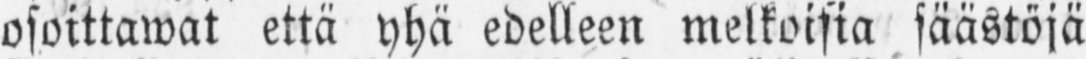osoittawat että yhä edelleen melkoisia säästöjä
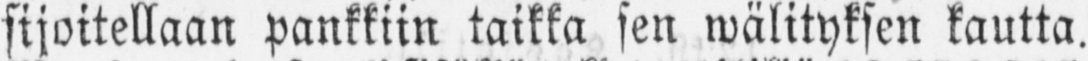sijoitellaan pankkiin taikka sen wälityksen kautta.
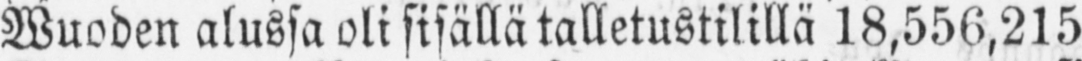Wuoden alussa oli sisällä talletustilillä 18,556,215
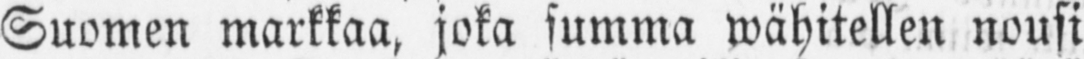Suomen markkaa, joka summa wähitellen nousi
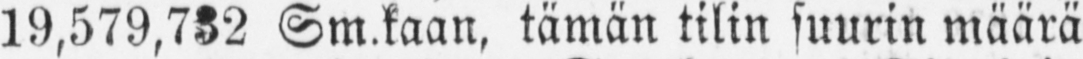19,579,732 Sm.kaan. tämän tilin suurin määrä
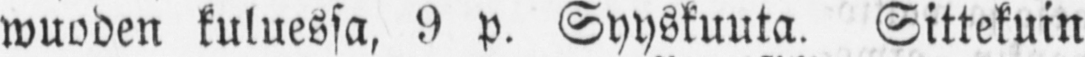wuoden kuluessa, 9 p. Syyskuuta. Sittekuin
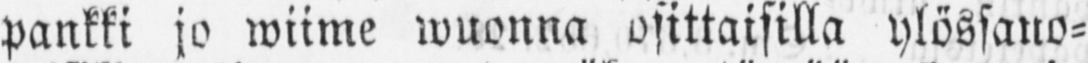pankki jo wiime wuonna osittaisilla ylössano-
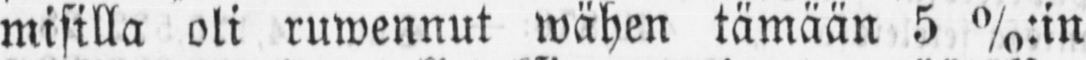misilla oli ruwennut wähen tämään 5 %:in
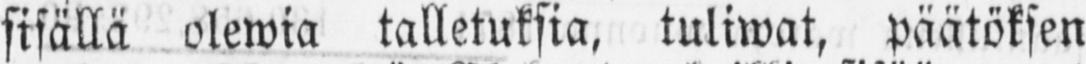sisällä olewia talletuksia, tuliwat, päätöksen
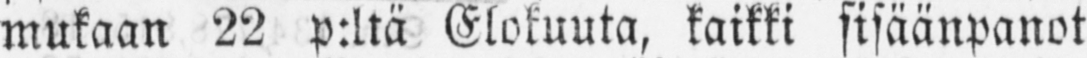mukaan 22 p:ltä Elokuuta, kaikki sisäänpanot
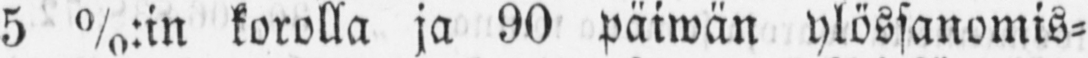5 %:in korolla ja 90 päiwän ylössanomis-
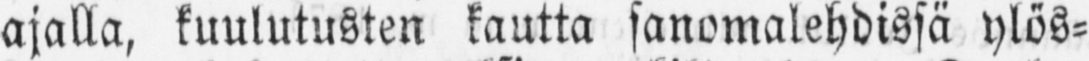ajalla, kuulutusten kautta sanomalehdissä ylös-
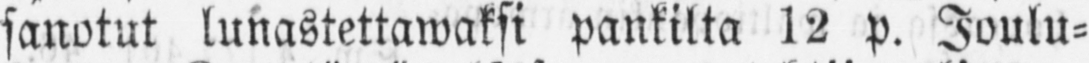sanotut lunastettawaksi pankilta 12 p. Joulu-
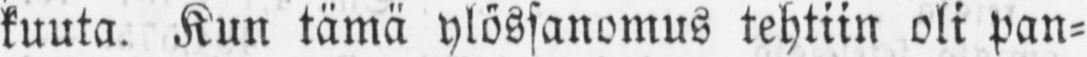kuuta. Kun tämä ylössanomus tehtiin oli pan-
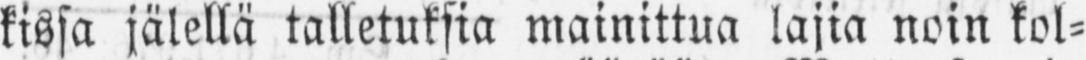kissa jälellä talletuksia mainittua lajia noin kol-
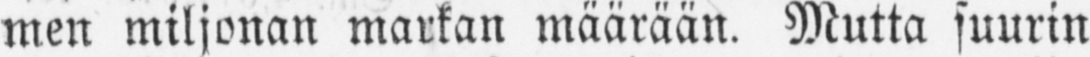men miljonan markan määrään. Mutta suurin
